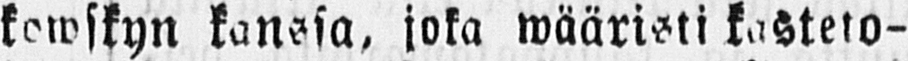kowskyn kanssa, joka wääristi kasteto-
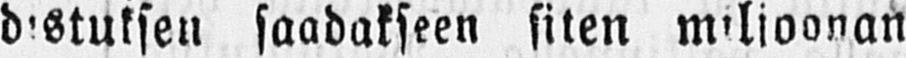distuksen saadakseen siten miljoonan
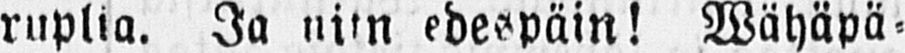ruplia. Ja niin edespäin! Wähäpä-
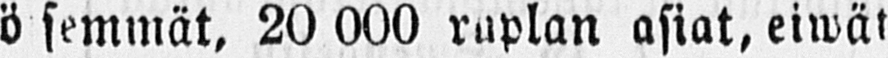töisemmät, 20 000 ruplan asiat, eiwät
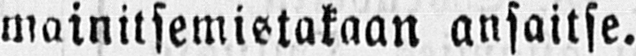mainitsemistakaan ansaitse.
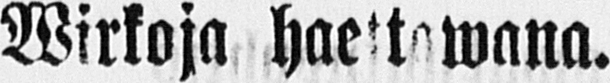Wirkoja haettawana.
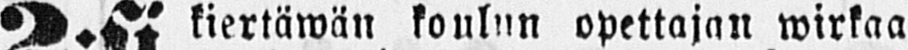2:si kiertäwän koulun opettajan wirkaa
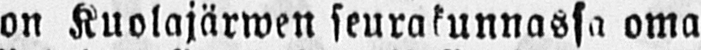on Kuolajärwen seurakunnassa oma
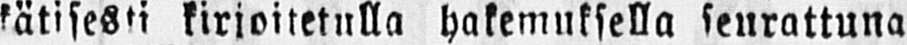kätisesti kirjoitetulla hakemuksella seurattuna
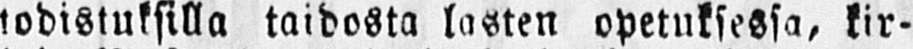todistuksilla taidosta lasten opetuksessa, kir-
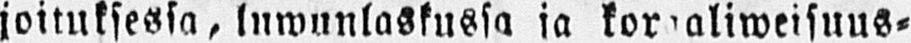joituksessa, luwunlaskussa ja koraaliweisuus-
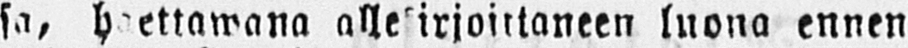sa, haettawana allekirjoittaneen luona ennen
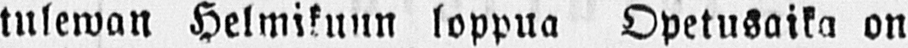tulewan Helmikuun loppua Opetusaika on
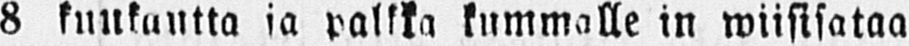8 kuukautta ja palkka kummalle in wiisisataa
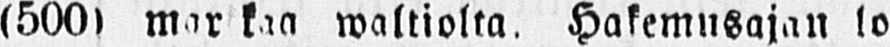l500) mar kaa waltiolta. Hakemusajan lo-
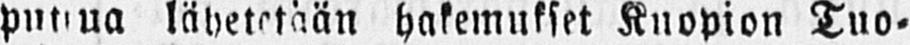puttua hakemukset Kuopion Tuo-
